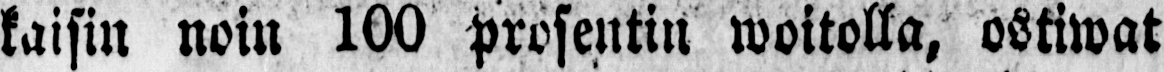kaisin noin 100 prosentin woitolla, ostiwat
